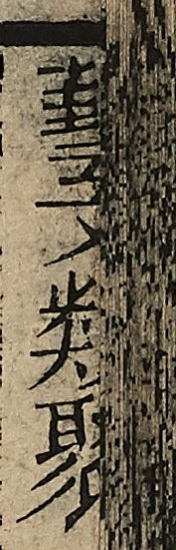藝文類聚
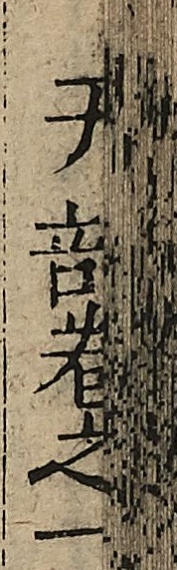天部卷之一
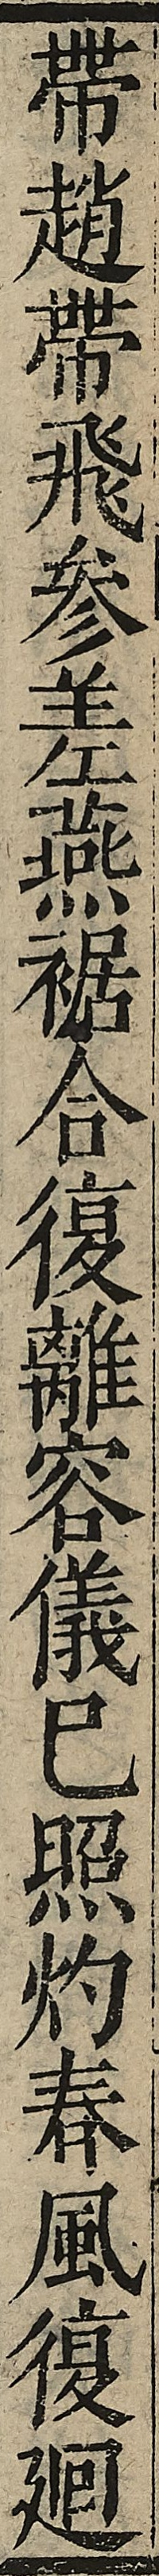帶趙帶飛參差燕裾合復離容儀已照灼春風復迴
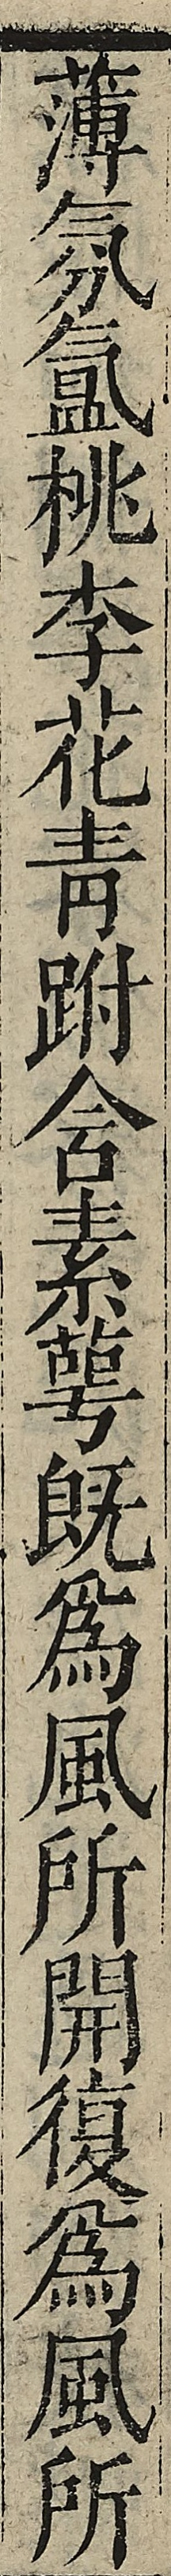薄氛氳桃李花青跗含素萼既為風所開復為風所
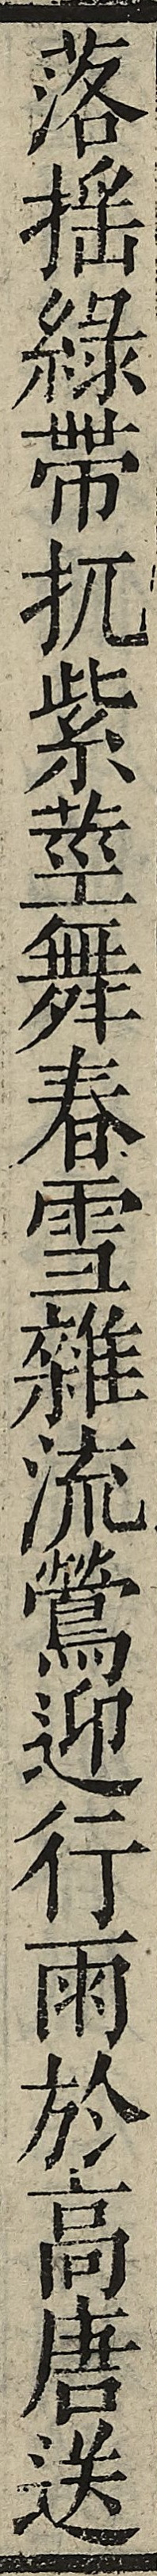落搖綠蔕扤紫莖舞春雪雜流鶯迎行雨於高唐送
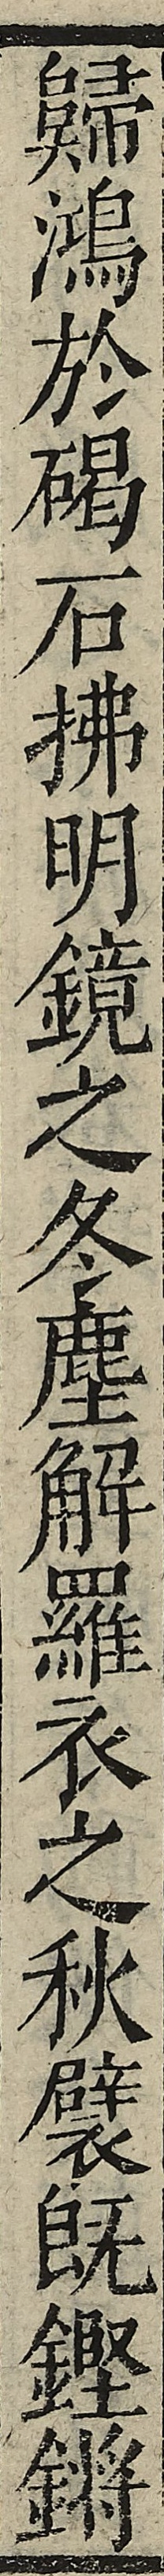歸鴻於碣石拂明鏡之冬塵解羅衣之秋襞既鏗鏘
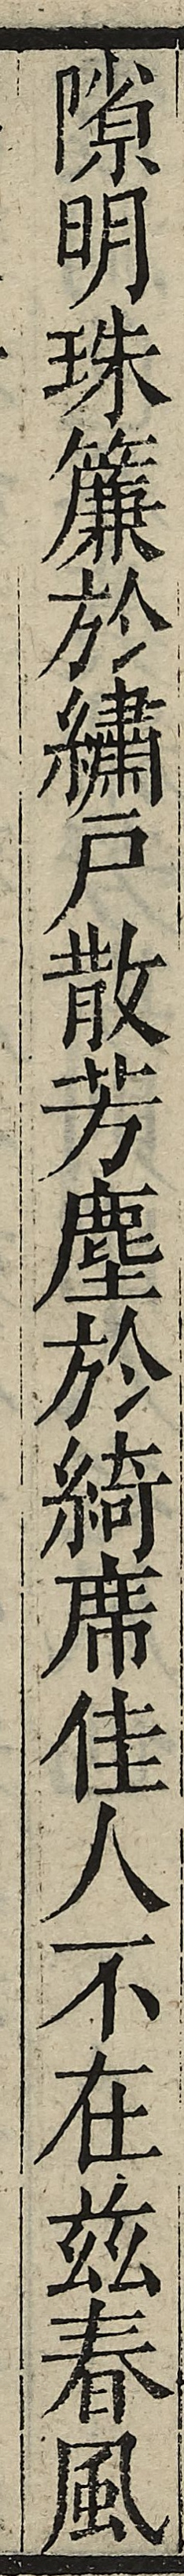隙明珠簾於繡戶散芳塵於綺席佳人不在茲春風
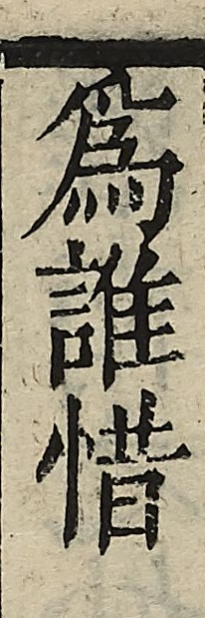為誰惜
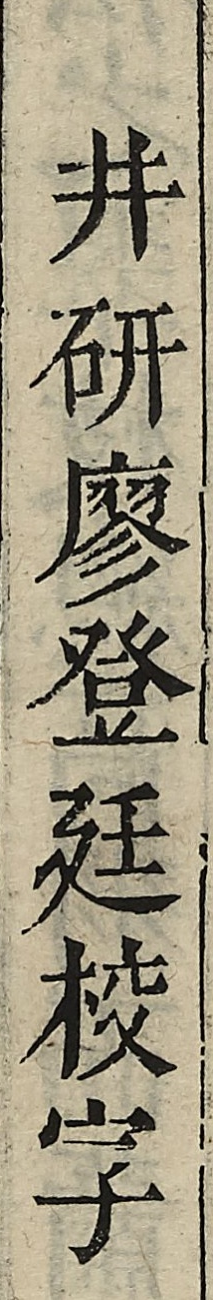井研廖登廷校字
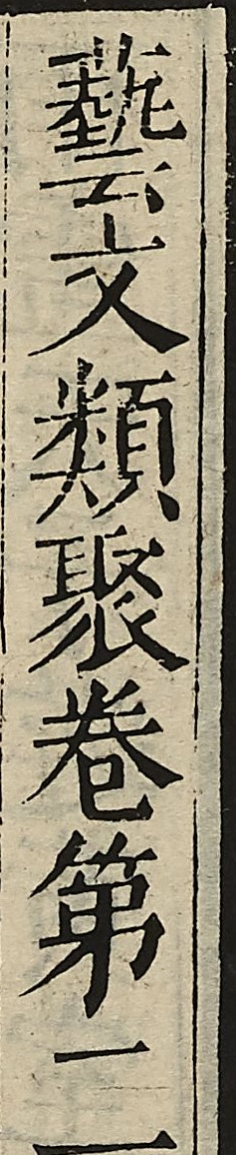藝文類聚卷第二
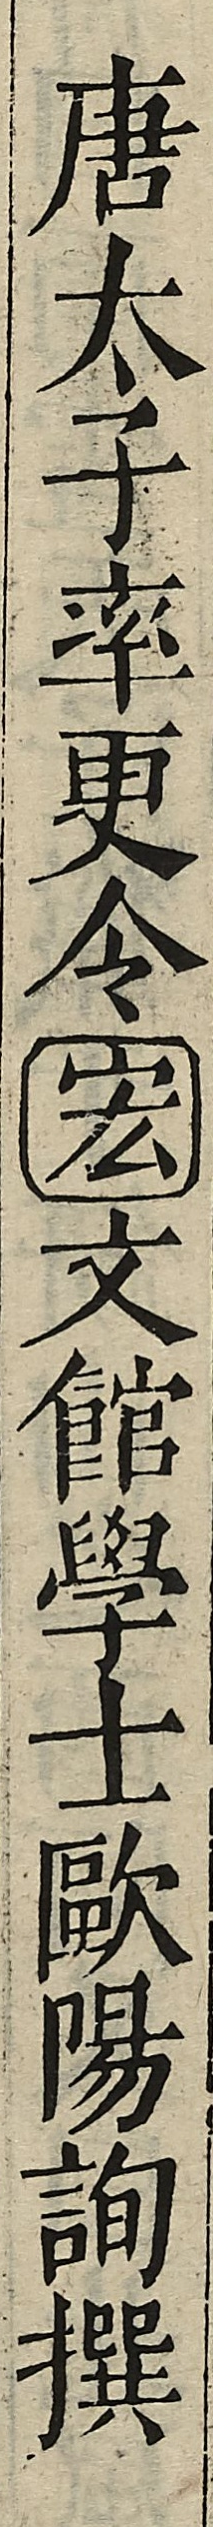唐太子率更令宏文館學士歐陽詢撰
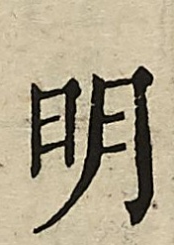明
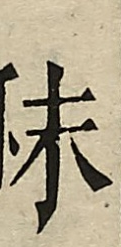秣
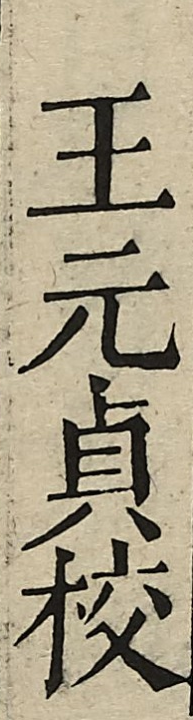王元貞校
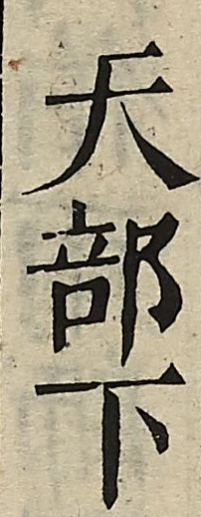天部下
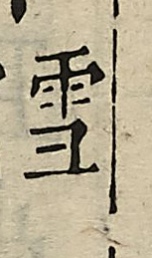雪
